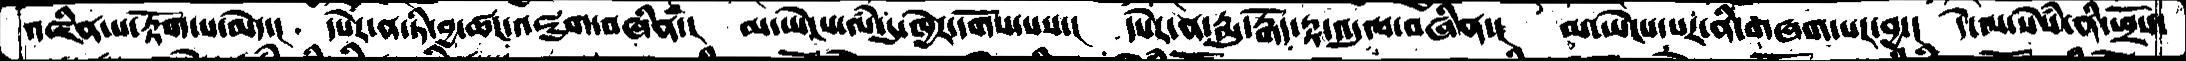འཛིན་པ་རྟོག་པ་མེད་།  དཔེར་ན་ཏི་བྱ་ཚང་འཇུག་བཞིན་།  མ་ཡེངས་ལཾ་དུ་ཁྱེར་དགོས་པས་།  དཔེར་ན་རྨུ་རྒོད་རྟ་འདུལ་བཞིན་།  མ་ཡེངས་པར་ནི་གཞག་པར་བྱ་།  དེ་ལ་སེསཾ་ནི་ཕྲོས་
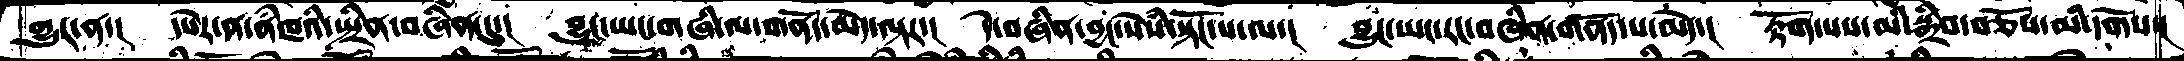གྱུར་ན་།  དཔེར་ན་ནཾཁའི་སྤྲིན་བཞིན་དུ་།  བྱུང་ཡང་གཞི་ལ་གནོད་མེད་ལྟར་།  དེ་བཞིན་བྱང་སེཾས་སྟོང་པ་ལ་།  བྱུང་ཡང་རང་བཞིན་གནོད་པ་མེད་།  རྟོག་པས་མི་སྒྲིབ་བཅོས་མི་དགོས་།
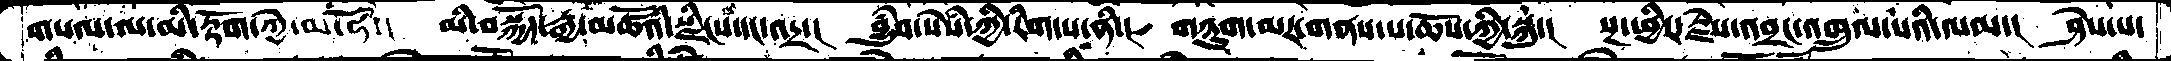གསལ་ལ་མི་རྟོག་ཀྱེ་མ་ཧོ་།   མི་བསྐྱོད་རྒྱ་མཚོའི་སྫིངས་དང་འདྲ་།  བྱུཾབ་སེཾས་ཀྱི་རིག་པ་ནི་།  གཉུག་མར་གནས་པ་ཆོས་ཀྱི་སྐུ་།  སྔ་ཕྱིར་རྗེས་འབྲང་འཁྲུལ་པའི་ལམ་།  ཤེས་པ་
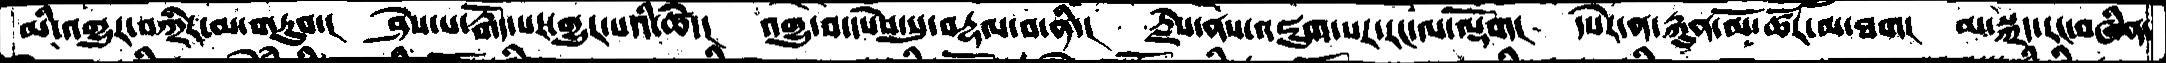མི་འགྱུར་བཀྲིར་མ་གཏུབ་།   ཤེས་པ་རྒོད་པར་གྱུར་པའི་ཚེ་།  འགྱུ་བ་དསེས་སུ་བརྡལ་བ་ནི་།  རྗེས་ནས་འཇུག་པར་རང་ལ་ལྡོག།  དཔེར་ན་རྐུན་མོ་ཚོར་མ་ཐག།  མ་སྐྲད་རང་བཞིན་
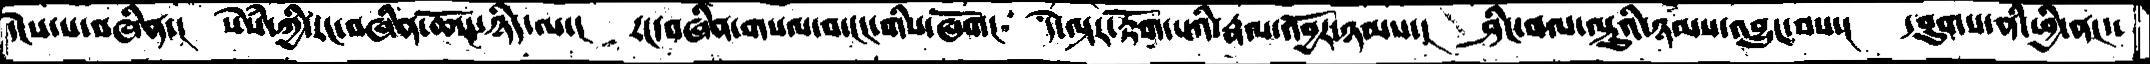་ངེས་པ་བཞིན་།  སེཾས་ཀྱི་རང་བཞིན་ཆོས་ཉིད་ལ་།  རང་བཞིན་གསལ་བ་ངང་གིས་ཞོག།  དེ་ལྟར་རྟོག་པའི་རྣལ་འབྱོར་ཉམས་།  ཤིང་བལ་ལྟུའི་ཉམས་འབྱུང་བས་།  དབུགས་ནི་ཕྱི་ནང་
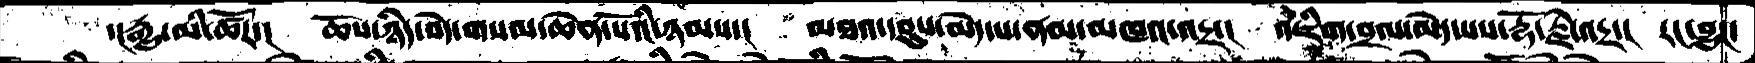་།རྒྱུ་མི་ཚོར་།   ཆོས་ཉིད་བདེ་གསལ་ཆེན་པོའི་ཉམས་།  མཐའ་དབུས་མེད་པ་ནམ་མཁའ་འདྲ་།  འཇིག་བྲལ་མེད་པས་རྡོ་རྗེ་འདྲ་།  རང་བྱུང་
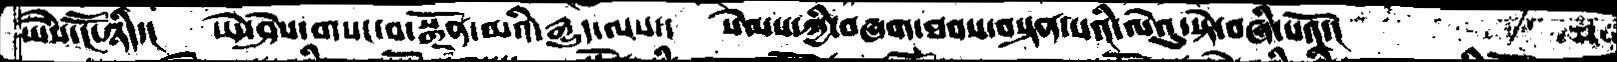ཡཻས་ངཽ་ཉིད་།   ཡེ་ཤེས་གསང་བ་སྒྲོན་མའི་རྒྱུད་ལས་།  སེམས་ཀྱི་བཞག་ཐབས་བསྟན་པའི་ལེའུ་སྟེ་བཞི་པའོ་།
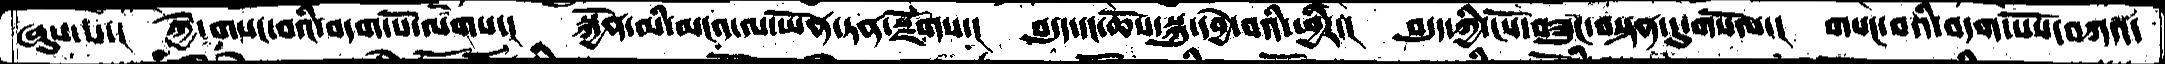ཞུས་པ་།  ཀྱེ་གསང་བའི་བདག་པོ་ལགས་།  སྐྱོན་མི་མངའ་ལ་ཡོན་ཏན་སྫོགས་།  བདུད་དང་ཆོས་སྐུ་དབྱེ་བའི་ཕྱིར་།  བདུད་ཀྱི་ངོས་བཟུང་བསྟན་དུ་གསོལ་།  གསང་བའི་བདག་པོས་བཀའ་
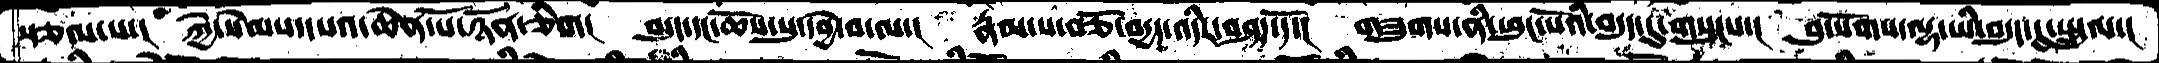སྩལ་པ་།  ཀྱེ་སེམས་དཔའ་ཆེན་པོ་ཉོན་ཅིག།  བདུད་དང་ཆོས་སུ་དབྱེ་བ་ལ་།  རྣམ་པ་བཅོ་བདྱད་འདིར་བཤད་དོ་།  གཟུགས་ནི་ཕུང་པོའི་བདུད་དུ་གསུངས་།  བུ་སོགས་ལྷ་ཡི་བདུད་དུ་སྤྲུལ་།
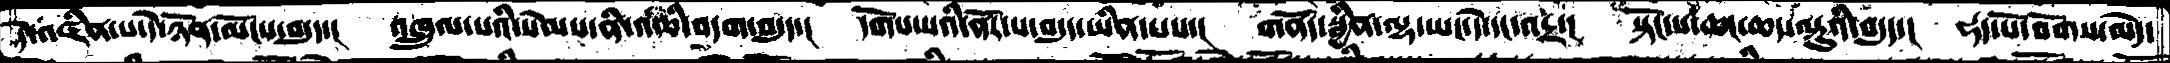དེ་འཛིན་པ་དེ་ཉོན་མོངས་བདུད་།  འཁྲུལ་པའི་སེམས་ནི་འཆི་བདག་བདུད་།  དགོས་པའི་ནོར་ས་བདུད་ཡིན་པས་།  གནོད་སྦྱིན་ལྷ་ཡང་དེ་དང་འདྲ་།  སྟོང་པ་ཆང་ཆད་ལྟུའི་བདུད་།  ཧད་པོ་བོགས་མེད་
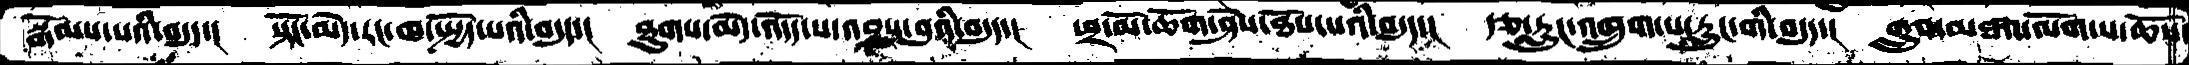སྒོམས་པའི་བདུད་།  སྟོང་མེད་རང་ཁ་སྤྱོད་པའི་བདུད་།  ཐུགས་མེད་འདོད་པ་འབྲས་བུའི་བདུད་།  ཕྲ་མོ་ཆོག་ཤེས་ཐོས་པའིབདུད་།  རྩ་རླུང་འཁྲུག་པ་རླུང་གི་བདུད་།  གྲུབ་མཐའ་ལོག་པ་ཆོས་
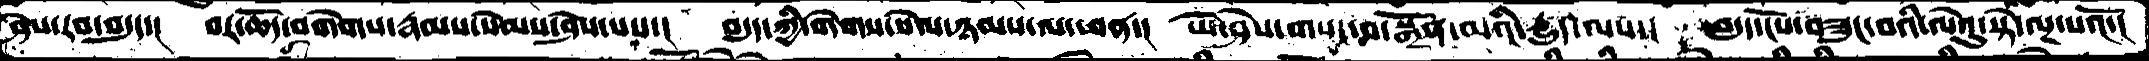ཤེས་རབ་བདུད་།  བར་ཆོད་བགེགས་རྣམས་སེམས་ཤེས་པས་།  བདུད་ཀྱི་གེགས་སེལ་ཉམས་ལ་ཕན་།  ཡེ་ཤེས་གསང་བ་སྒྲོན་མའི་དྱུད་ལས་།  བདུད་ངོས་བཟུང་བའི་ལེའུ་སྟེ་ལྔ་པའོ་།
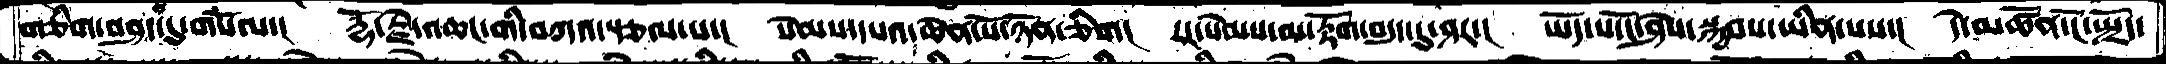གཅིག་བཤད་དུ་གསོལ་།  རྡོ་རྗེ་འཆང་གི་བཀའ་སྩལ་པ་།  སེམས་དཔའ་ཆེན་པོ་ཉོན་ཅིག།  རང་སེམས་མ་རྟོགས་བདུད་དུ་ཤར་།  ཡོད་པ་ངོ་ཤེས་སྐྱབས་ཡིན་པས་།  དེ་མཚོན་ངོ་སྤྲོད་
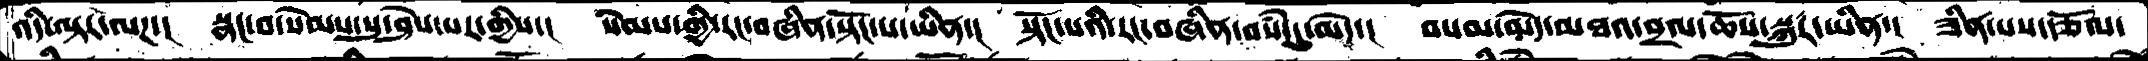འདི་ལྟར་ལཌ་།  སྣང་བ་སེམས་སུ་ཤེས་པར་གྱིས་།  སེམས་ཀྱི་རང་བཞིན་སྟོང་པ་ཡིན་།  སྟོང་པའི་རང་བཞིན་བསཾ་དུ་མེད་།  བསམ་མེད་མཐའ་བྲལ་ཆོས་སྐུར་ཡིན་།  ཟིན་པས་རྩོལ་
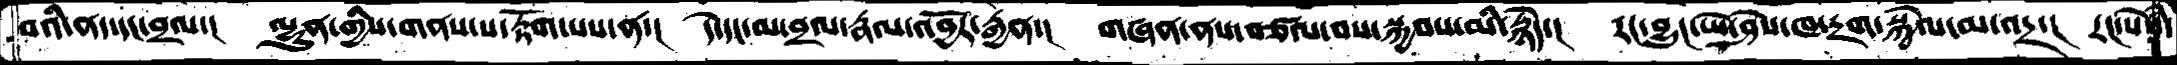བའི་ནད་དང་བྲལ་།  ལྷུན་གྱིས་གནས་པ་རྟོག་པས་ན་།  དེ་དང་མ་བྲལ་རྣལ་འབྱོར་རྒྱན་།  གཞན་ནས་བཙལ་བས་སྐྱབས་མི་རྙེད་།  རང་བྱུང་ཡེ་ཤེས་ཁ་དྲག་སྐྱེལ་མ་འདྲ་།  རང་སེཾས་
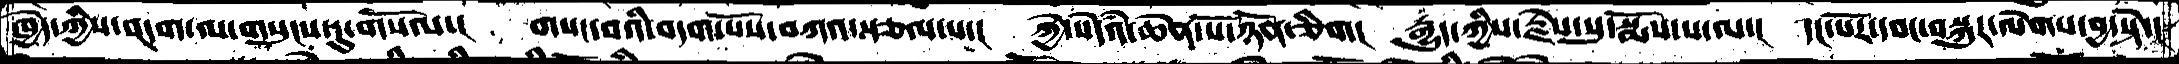ཁྱེད་ཀྱིས་བདག་ལ་གསུངས་དུ་གསོལ་།  གསང་བའི་བདག་པོས་བཀའ་སྩལ་པ་།  ཀྱེ་སེཾདའ་ཆེན་པོ་ཉོན་ཅིག།  རྒྱུད་ཀྱིས་རྗེས་སུ་སྨོས་པ་ལ་།  དང་པོར་དབང་བསྐུར་ལེགས་བྱ་སྟེ་།
